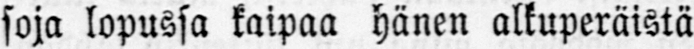soja lopussa kaipaa hänen alkuperäistä
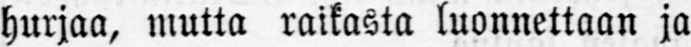hurjaa, mutta raikasta luonnettaan ja
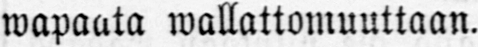wapaata wallattomuuttaan.
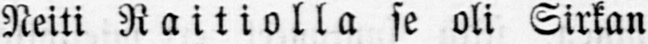Neiti Raitiolla se oli Sirkan
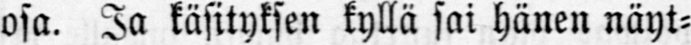osa. Ja käsityksen kyllä sai hänen näyt-
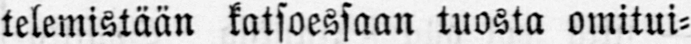telemistään katsoessaan tuosta omitui-
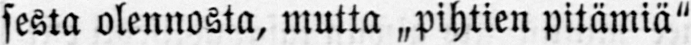sesta olennosta, mutta „ pihtien pitämiä"
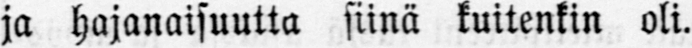ja hajanaisuutta siinä kuitenkin oli.
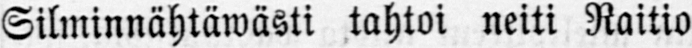Silminnähtäwästi tahtoi neiti Raitio
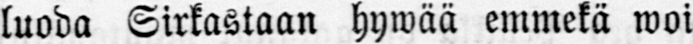luoda Sirkastaan hywää emmekä woi
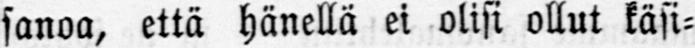sanoa, että hänellä ei olisi ollut käsi-
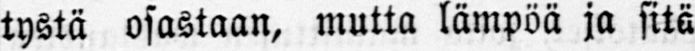tystä osastaan, mutta lämpöä ja sitä
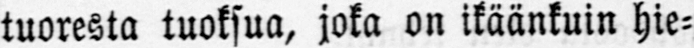tuoresta tuoksua, joka on ikäänkuin hie-
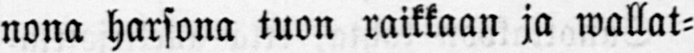nona harsona tuon raikkaan ja wallat-
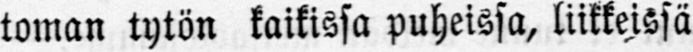toman tytön kaikissa puheissa, liikkeissä
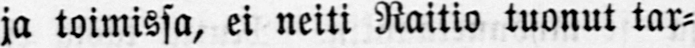ja toimissa, ei neiti Raitio tuonut tar-
